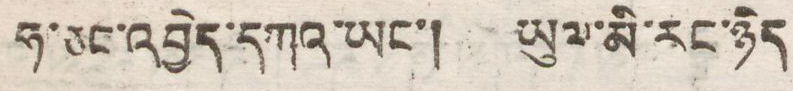ཧ་ཅང་འབྱེད་དཀའ་ཡང་། ཡུལ་མི་རང་ཉིད
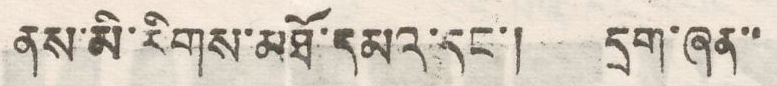ནས་མི་རིགས་མཐོ་དམའ་དང་། དྲུག་ཞན་་
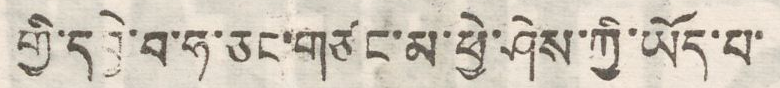གྱི་དབྱེ་བ་ཧ་ཅང་གཙང་མ་ཕྱེ་ཤེས་ཀྱི་ཡོད་པ་
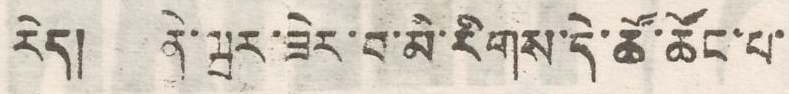རེད། ནེ་ཝར་ཟེར་བ་མི་རིགས་དེ་ཚོ་ཚོང་པ་
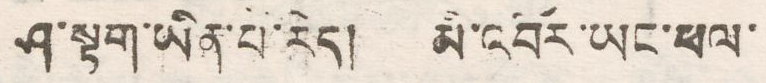ཤ་སྟག་ཡིན་པ་རེད།  མི་འབོར་ཡང་ཕལ་
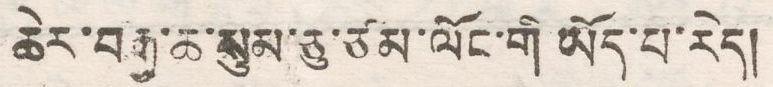ཆེར་བརྒྱ་ཆ་སུམ་ཅུ་ཙམ་ལོང་གི་ཡོད་པ་རེད།
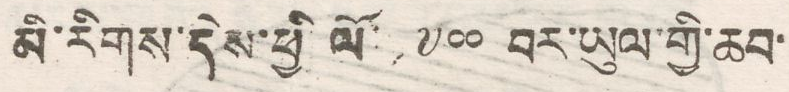མི་རིགས་དེས་ཕྱི ལོ་ ༡༩༠ བར་ཡུལ་གྱི་ཆབ་
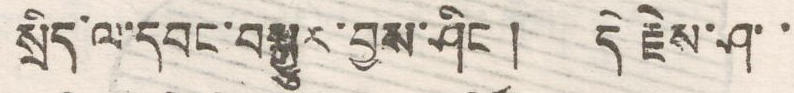སྲིད་ལ་དབང་བསྒྱུར་བྱས་ཤིང་། དེ རྗེས་ཤ་
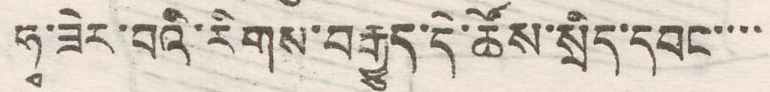ཧ་ཟེར་བའི་རིགས་བརྒྱུད་དེ་ཚོས་སྲིད་དབང་་་་
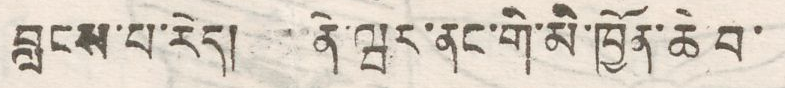བླངས་པ་རེད། ནེ་ཝར་ནང་གི་མི་ཁྱོན་ཆེ བ་
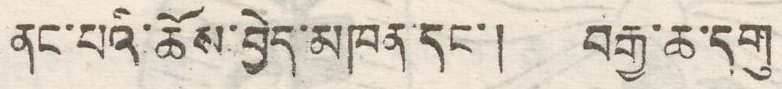ནང་པའི་ཆོས་བྱེད་མཁན་དང་། བརྒྱ་ཆ་དགུ་
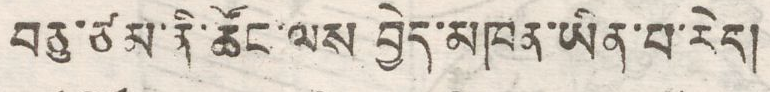བཅུ་ཙམ་ནི་ཚོང་ལས བྱེད་མཁན་ཡིན་པ་རེད།
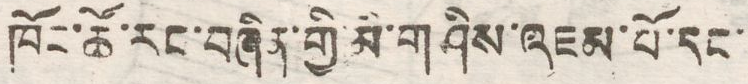ཁོང་ཚོ་རང་བཞིན་གྱི་མི་གཤིས་འཇམ་པོ་དང་།
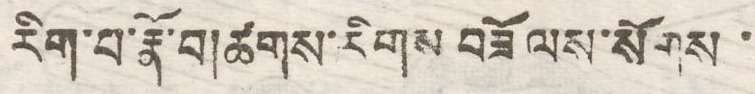རིག་པ་རྣོ་བ།ཚགས་རིགས བཟོ ལས་སོགས་
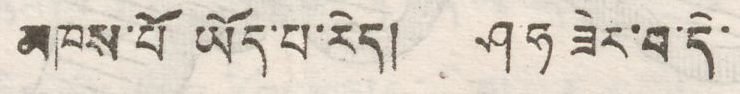མཁས་པོ ཡོད་པ་རེད། ཤ ཧ ཟེར་བ་དེ་
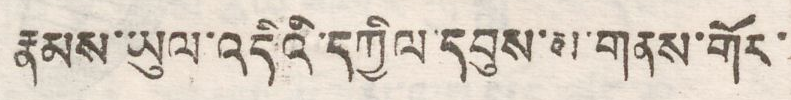རྣམས་ཡུལ་འདིའི་དཀྱིལ་དབུས་མ་གནས་གོར་
